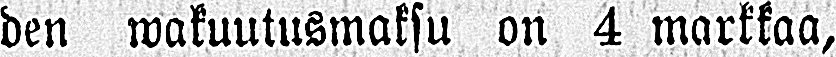den wakuutusmaksu on 4 markkaa,
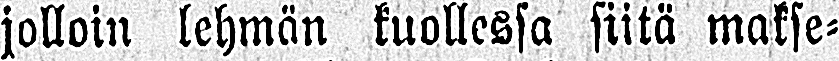jolloin lehmän kuollessa siitä makse-
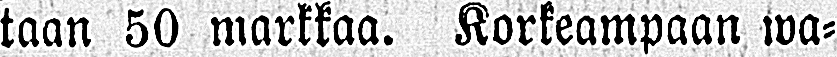taan 50 markkaa. Korkeampaan wa-
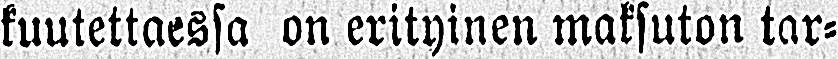kuutettaessa on erityinen maksuton tar-
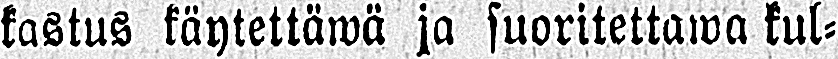kastus käytettäwä ja suoritettawa kul-
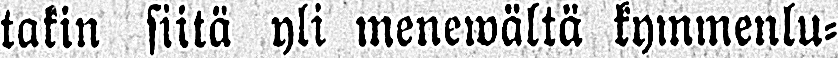takin siitä yli menewältä kymmenlu-
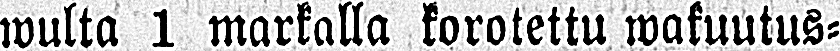wulta 1 markalla korotettu wakuutus-
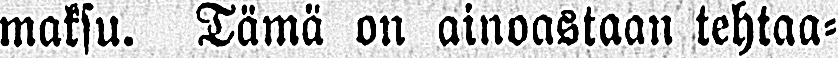maksu. Tämä on ainoastaan tehtaa-
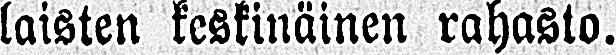laisten keskinäinen rahasto.
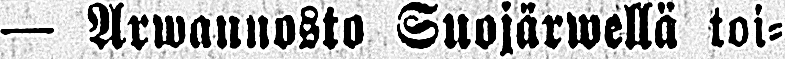— Arwannosto Suojärwellä toi-
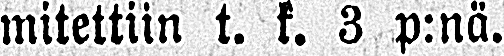mitettiin t. k. 3 p:nä.
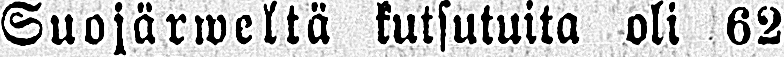Suojärweltä kutsutuita oli 62
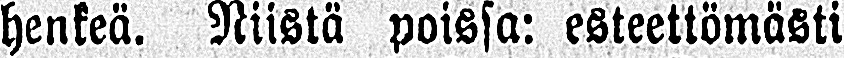henkeä. Niistä poissa: esteettömästi
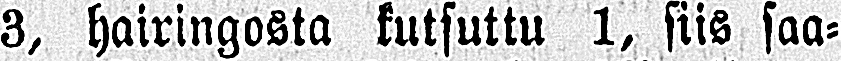3, hairingosta kutsuttu 1, siis saa-
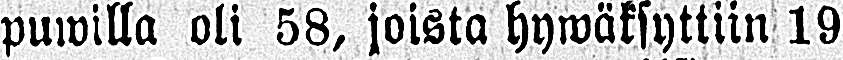puwilla oli 58, joista hywäksyttiin 19
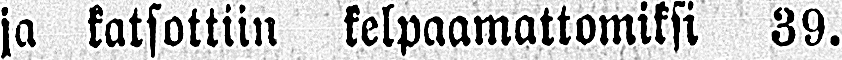ja katsottiin kelpaamattomiksi 39.
